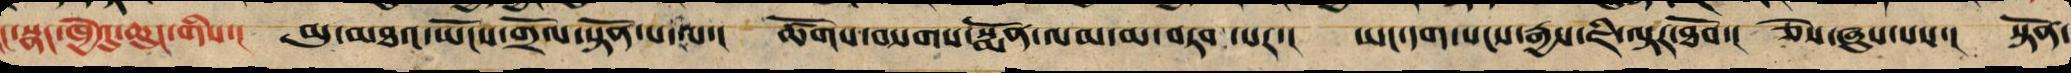རང་སྣང་ཁྱེའུ་ཆུང་གིས་། མུ་མཐའ་ཡོངས་གྲོལ་སྟོན་པ་ལ་། ཚོགས་བསགས་སྨོན་ལམ་མ་བཏབ་པར་། ཡང་དག་སངས་རྒྱས་ཇི་ལྟར་ཐོབ་། ཅེས་ཞུས་པས་། སྟོན་
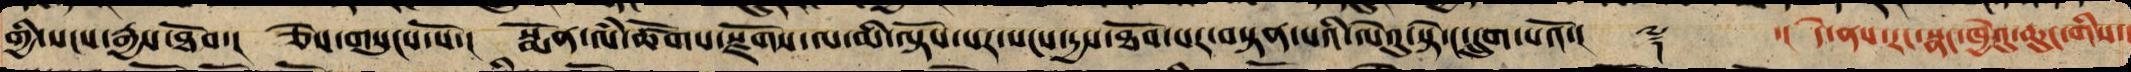གྱི་སངས་རྒྱས་ཐོབ་། ཅེས་གསུངས་སོ་། སྨོན་ལཾ་ཚོགས་སྫོགས་ལ་མི་ལྟོས་པར་སངས་དྱས་ཐོབ་པར་བསྟན་པའི་ལེའུ་སྟེ་ང་དྲུག་པའོ་།། ༈ ་།། དེ་ནས་རང་སྣང་ཁྱེའུ་ཆུང་གིས་།
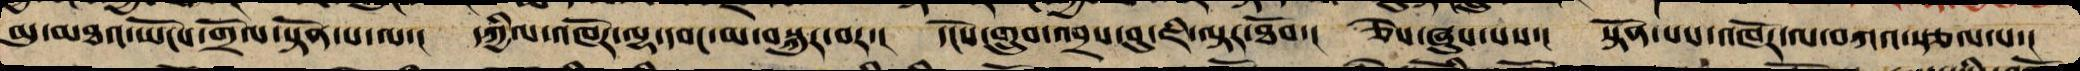མུ་མཐའ་ཡོངས་གྲོལ་སྟོན་པ་ལ་། དཀྱིལ་འཁོར་ལྷ་དབང་མ་བསྐུར་བར་། དངོས་གྲུབ་འབྲས་བུ་ཇི་ལྟར་ཐོབ་། ཅེས་ཞུས་པས་། སྟོན་པས་འཁོར་ལ་བཀའ་སྩལ་པ་།
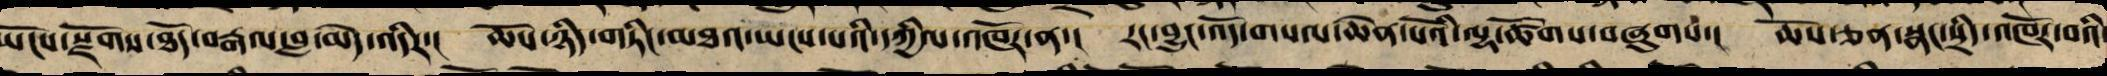ཡོངས་སྫོགས་ཐོད་བརྒལ་བླ་མེད་འདིར་། ཆོས་ཉིད་གཏིང་མཐའ་ཡངས་པའི་དཀྱིལ་འཁོར་ན་། རང་བྱུང་འོད་གསལ་ཆེན་པོའི་ལྷ་ཚོགས་བཞུགས་། ཆོས་ཅན་སྣང་སྲིད་འཁོར་བའི་
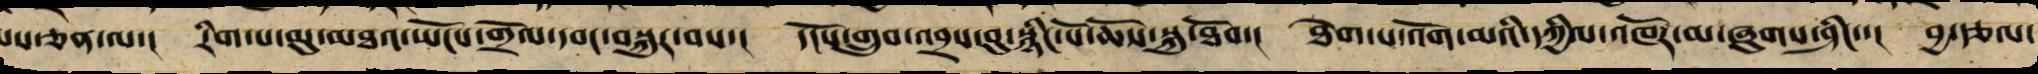སེམས་ཅན་ལ་། རིག་པ་མུ་མཐའ་ཡོངས་གྲོལ་དབང་བསྐུར་བས་། དངོས་གྲུབ་འབྲས་བུ་སྙིང་པོ་ཆོས་སྐུ་ཐོབ་། ཐེག་པ་འོག་མའི་དཀྱིལ་འཁོར་མ་ཞུགས་ཤིང་་། བྱ་རྩལ་
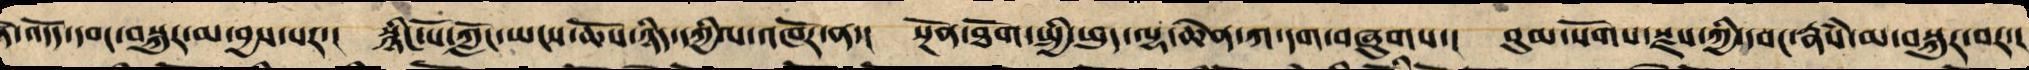ཞེ་འདོད་དབང་བསྐུར་མ་བྱས་པར་། སྙིང་པོ་ཀློང་ཡངས་ཆོས་ཉིད་དཀྱིལ་འཁོར་ན་། སྔོན་ཐོག་སྤྱི་ཕུད་ལྷ་ཆེན་ཀ་དག་བཞུགས་། བུམ་སོགས་སྫས་ཀྱི་དབང་རྣཾས་མ་བསྐུར་བར་།
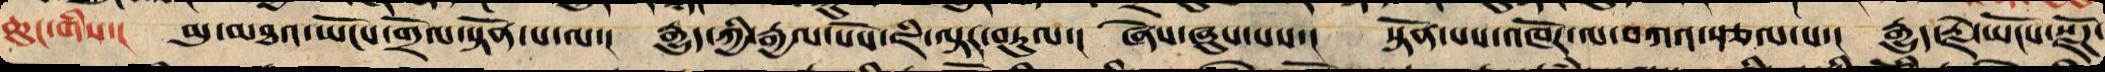ཆུང་གིས་། མུ་མཐའ་ཡོངས་གྲོལ་སྟོན་པ་ལ་། རྒྱུད་ཀྱི་རྒྱལ་པོས་ཇི་ལྟར་བཏུལ་། ཞེས་ཞུས་པས་། སྟོན་པས་འཁོར་ལ་བཀའ་སྩལ་པ་། རྒྱུད་རྗེ་ཡོངས་སྫོཌ་
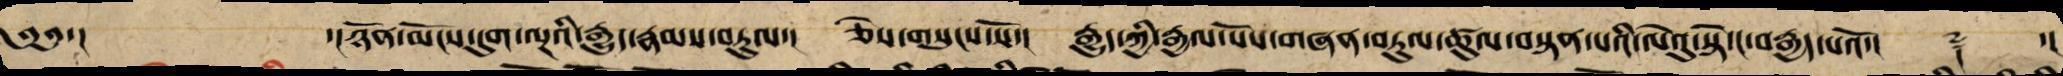༄༅་།  ་།ཉོན་མོངས་དུག་ལྔའི་རྒྱུད་རྣམས་བཏུལ་། ཞེས་གསུངས་སོ་། རྒྱུད་ཀྱི་རྒྱལ་པོས་གཞན་བཏུལ་ཚུལ་བསྟན་པའི་ལེའུ་སྟེ་ང་བརྒྱད་པའོ་།། ༈ ་།
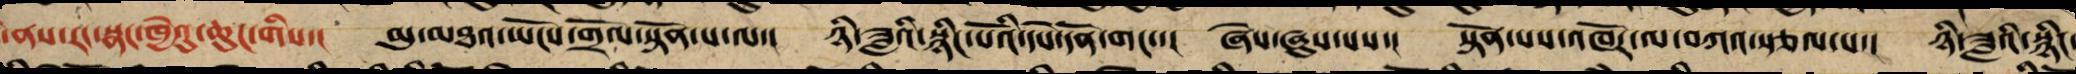དེ་ནས་རང་སྣང་ཁྱེའུ་ཆུང་གིས་། མུ་མཐའ་ཡོངས་གྲོལ་སྟོན་པ་ལ་། ཉི་ཟླའི་སྙིང་པོའི་དཔེ་དོན་གང་་། ཞེས་ཞུས་པས་། སྟོན་པས་འཁོར་ལ་བཀའ་སྩལ་པ་། ཉི་ཟླའི་སྙིང་
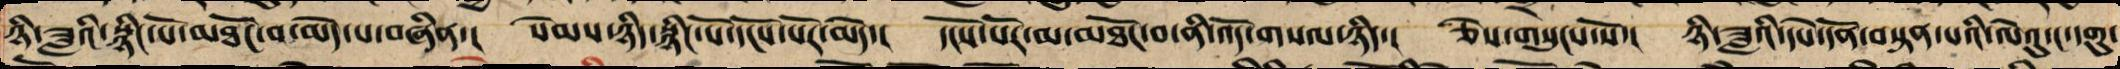ཉི་ཟླའི་སྙིང་པོ་མཐོང་བ་མེད་པ་བཞིན་། སེམས་ཉིད་སྙིང་པོ་དངོས་པོ་མེད་། དངོས་པོར་མ་མཐོང་བ་ནི་འོད་གསལ་ཉིད་། ཅེས་གསུངས་སོ་། ཉི་ཟླའི་དཔེ་དོན་བསྟན་པའི་ལེའུ་སྟེ་ང་དགུ་
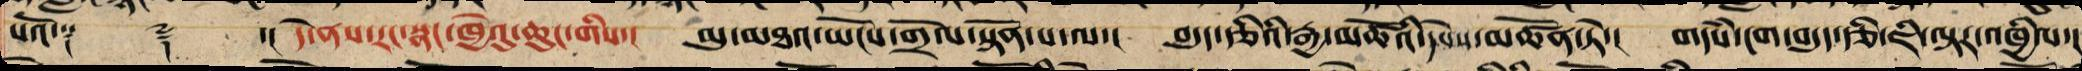པའོ།་༑ ༈ ་།། དེ་ནས་རང་སྣང་ཁྱེའུ་ཆུང་གིས་། མུ་མཐའ་ཡོངས་གྲོལ་སྟོན་པ་ལ་། བདུད་རྩིའི་རྒྱ་མཚོའི་དཔེས་མཚོན་ཏེ་། གདཾས་ངག་བདུད་རྩི་ཇི་ལྟར་འཁྱིལ་།
